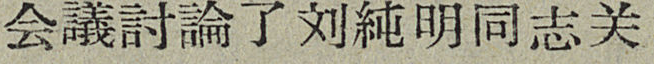会議討論了刘純明同志关
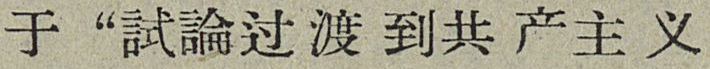于“試論过渡到共产主义
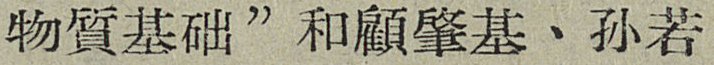物質基础”和顧肇基、孙若
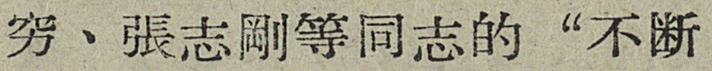穷、張志剛等同志的“不断
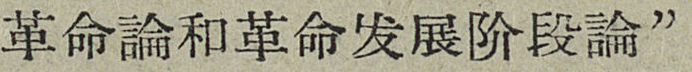革命論和革命发展阶段論”
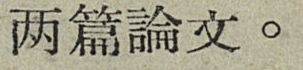两篇論文。
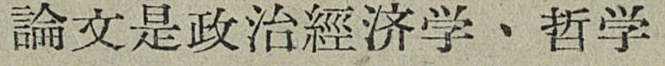論文是政治經济学、哲学
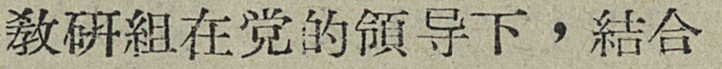敎研組在党領导下，結合
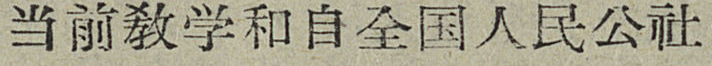当前敎学和自全国人民公社
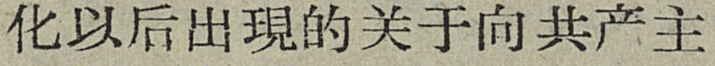化以后出現的关于向共产主
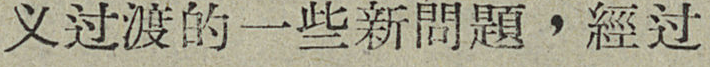义过渡的一些新問題，經过
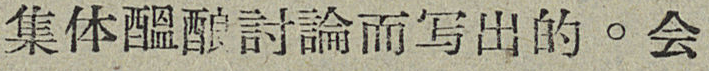集体醞酿討論而写出的。会
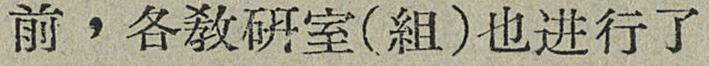前，各敎研室（組）也进行了
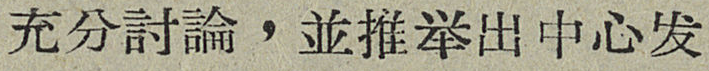充分討論，並推举出中心发
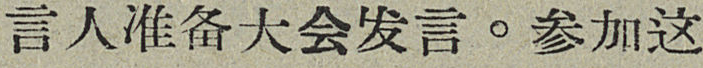言人准备大会发言。参加这
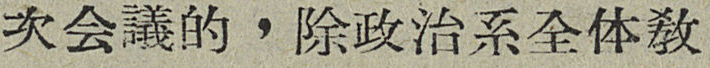次会議的，除政治系全体敎
